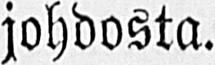johdosta.
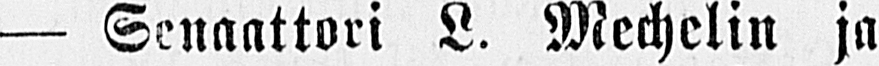— Senaattori L. Mechelin ja
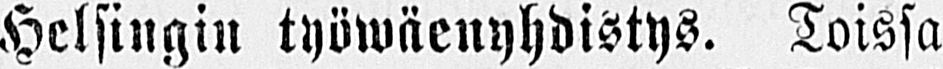Helsingin työwäenyhdistys. Toissa
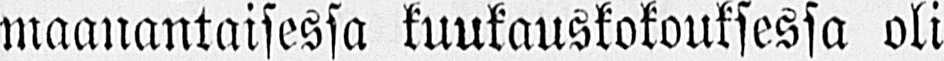maanantaisessa kuukauskokouksessa oli
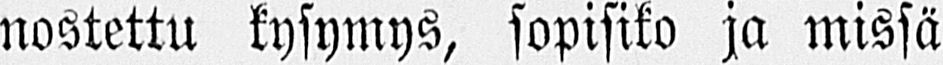nostettu kysymys, sopisiko ja missä
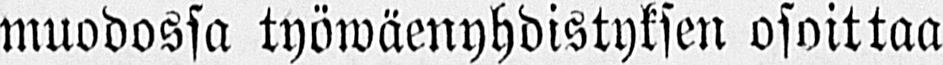muodossa työwäenyhdistyksen osoittaa
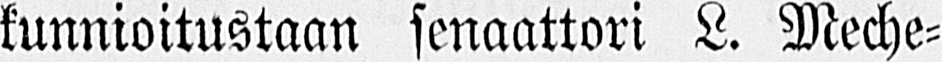kunnioitustaan senaattori L. Meche-
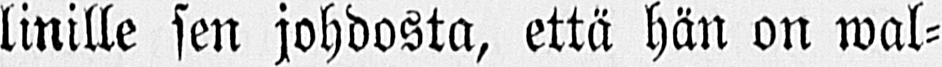linille sen johdosta, että hän on wal-
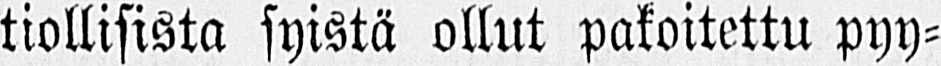tiollisista syistä ollut pakoitettu pyy-
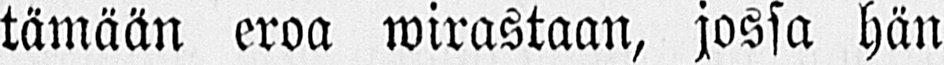tämään eroa wirastaan, jossa hän
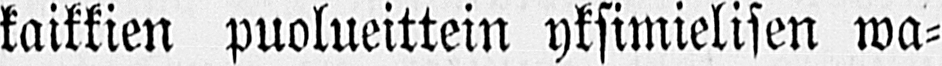kaikkien puolueittein yksimielisen wa-
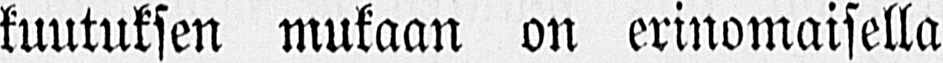kuutuksen mukaan on erinomaisella
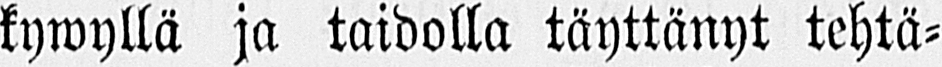kywyllä ja taidolla täyttänyt tehtä-
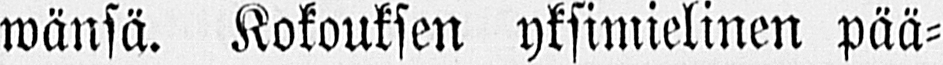wänsä. Kokouksen yksimielinen pää-
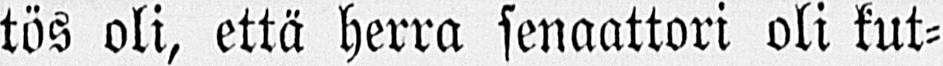tös oli, että herra senaattori oli kut-
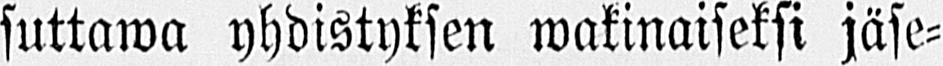suttawa yhdistyksen wakinaiseksi jäse-
